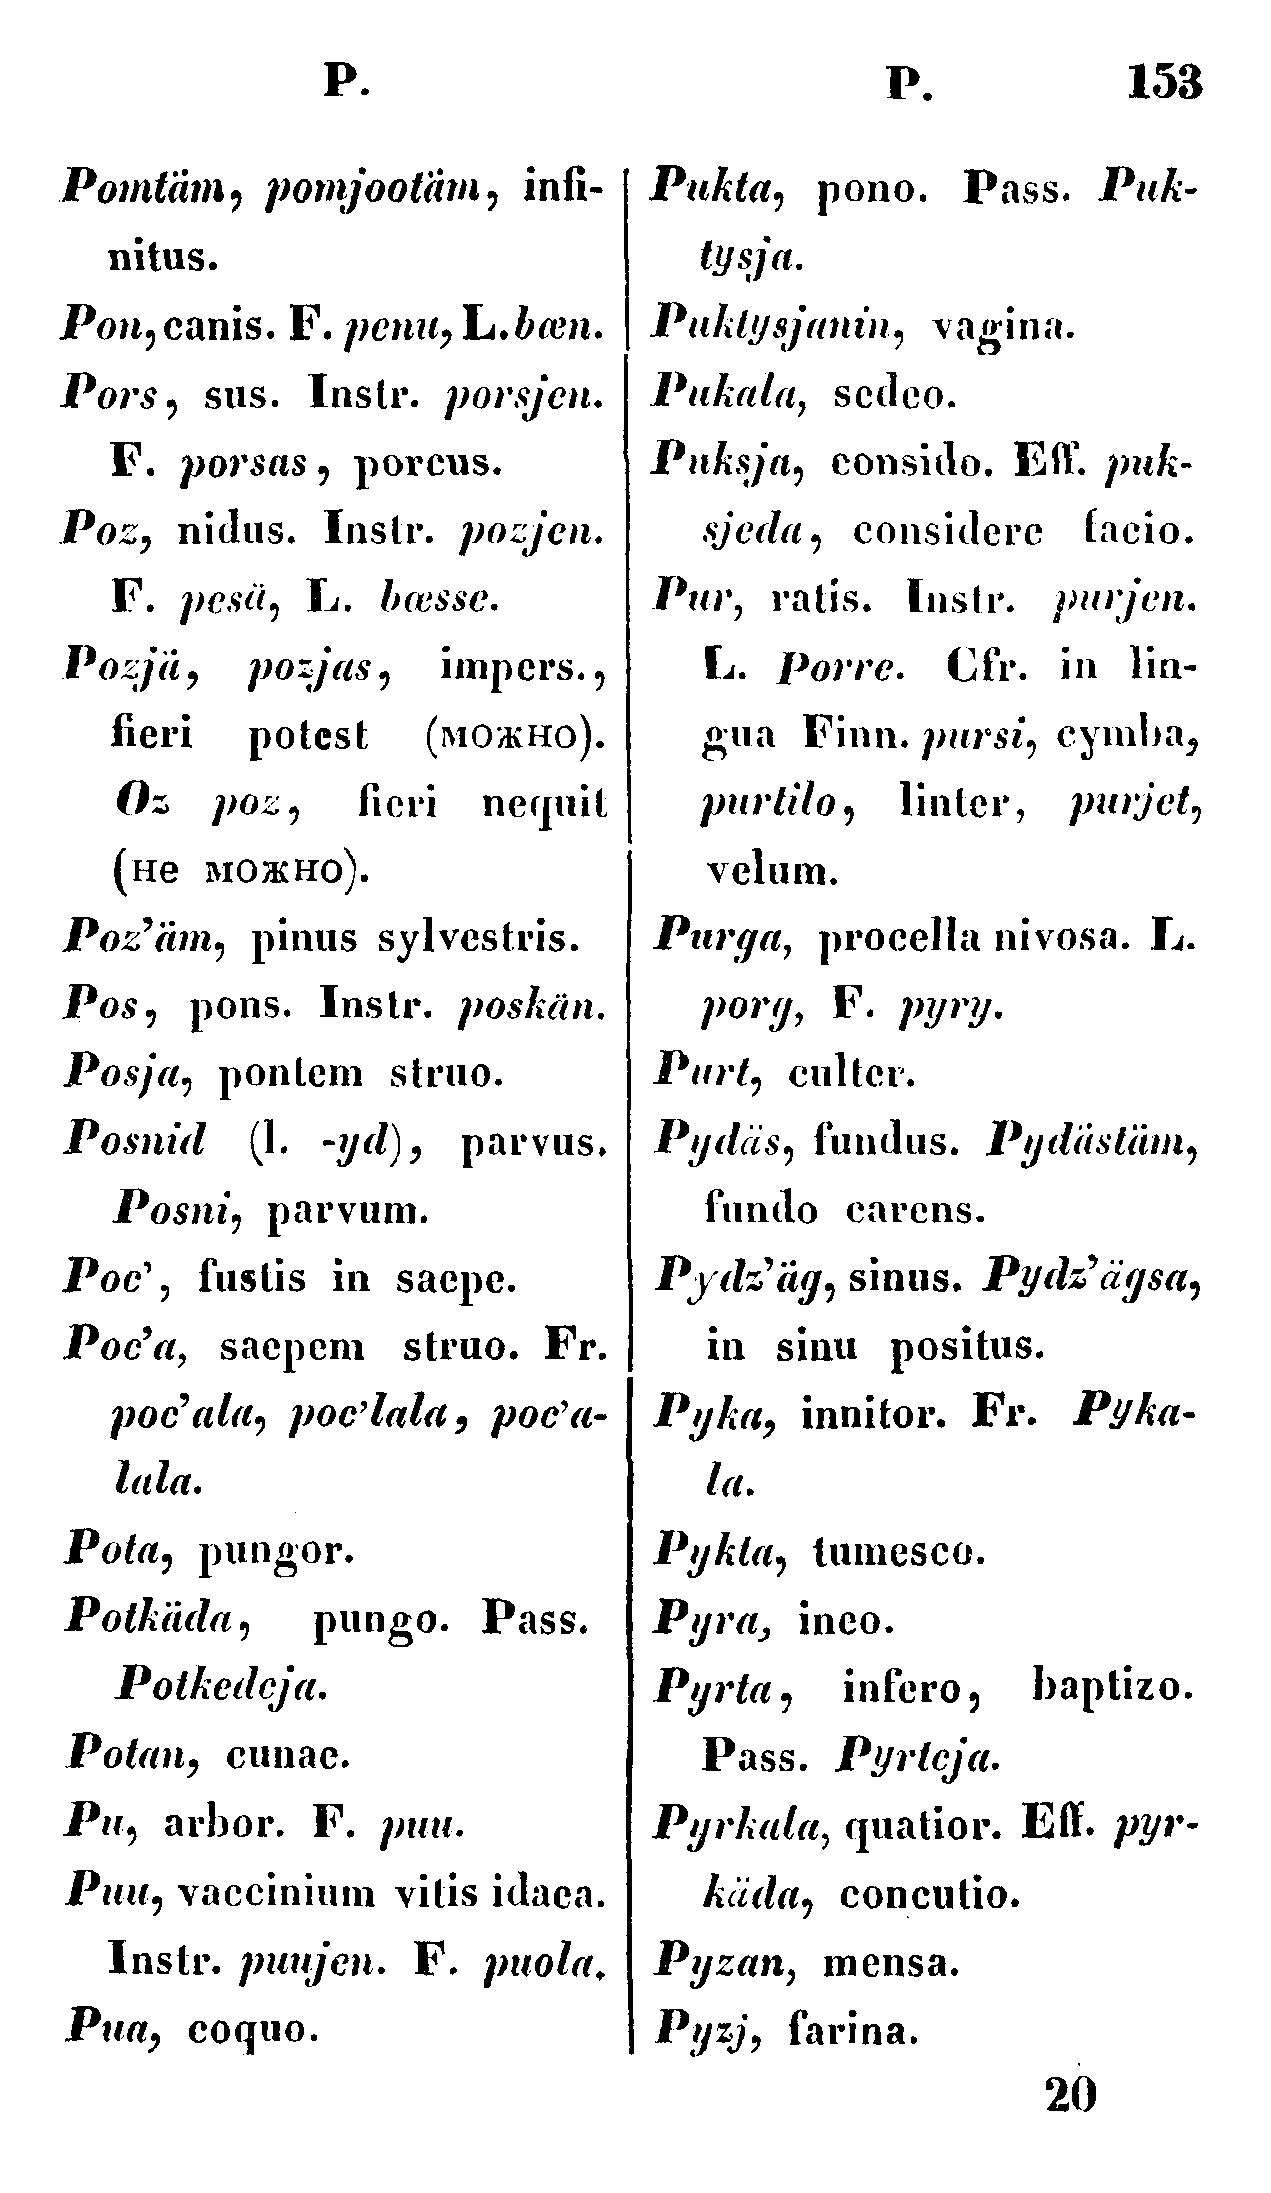P.
P.
153
Pomtäm, pomjootäm, infi-
nitus.
Pon, canis. F. penu, L. bæn.
Pors, sus. Instr. porsjen.
F. porsas, porcus.
Poz, nidus. Instr. pozjen.
F. pesä, L. bæsse.
Pozjä, pozjas, impers.,
fieri potest (можно).
Oz poz, fieri nequit
(не можно).
Poz'äm, pinus sylvestris.
Pos, pons. Instr. poskän.
Posja, pontem struo.
Posnid (l. -yd), parvus.
Posni, parvum.
Poc', fustis in saepe.
Poc'a, saepem struo. Fr.
poc'ala, poc'lala, poc'a-
lala.
Pota, pungor.
Potkäda, pungo. Pass.
Potkedeja.
Potan, cunae.
Pu, arbor. F. puu.
Puu, vaccinium vitis idaca.
Instr. puujen. F. puola.
Pua, coquo.
Pukta, pono. Pass. Puk-
lysja.
Puktysjanin, vagina.
Pukala, sedeo.
Puksja, consido. Eff. puk-
sjeda, considere facio.
Pur ratis. Instr. purjen.
L. Porre. Cfr. in lin-
gua Finn. pursi, cymba,
purtilo, linter, purjet,
velum.
Purga, procella nivosa. L.
porg, F. pyry.
Purt, culter.
Pydäs, fundus. Pydästäm,
fundo carens.
Pydz'äg, sinus. Pydz'ägsa,
in sinu positus.
Pyka, innitor. Fr. Pyka-
la.
Pykta, tumesco.
Pyra, ineo.
Pyrta, infero, baptizo.
Pass. Pyrteja.
Pyrkala, quatior. Eff. pyr-
käda, concutio.
Pyzan, mensa.
Pyzj, farina.
20
